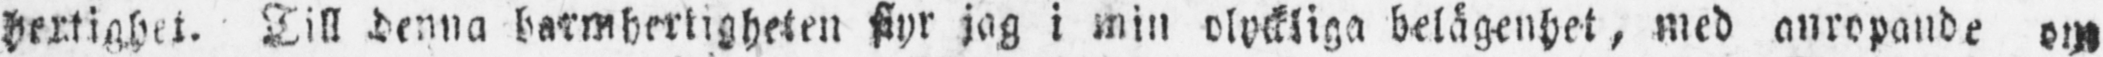hertighet. Till denna barmhertigheten fiyr jag i min olyckliga belägenhet, med anropande om
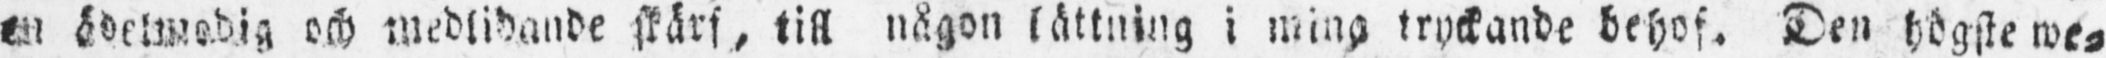til ädelmodig och medlidande skärf, till någon lättning i mina tryckande behof. Den högste we-
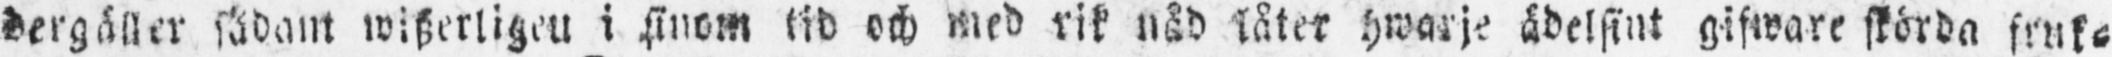dergäller sådant wiszerligen i sinom tid och med rik nåd låter hwarje ädelsint gifware skörda fruk-
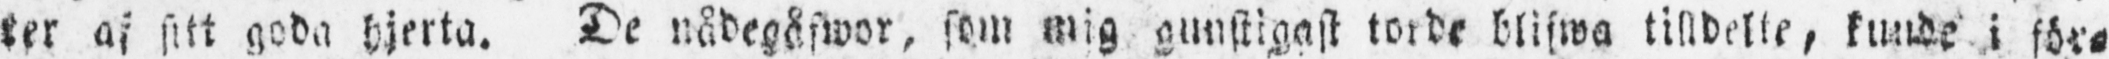ter af sitt goda hjerta. De nådegåfwor, som mig gunstigast torde blifwa tilldelte, kunde i för-
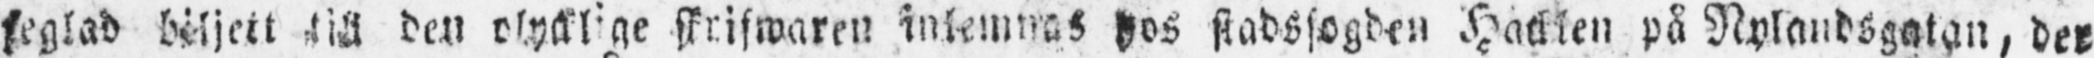seglad biljett till den olycklige skrifwaren inlemnas hos stadsfogden Hacklen på Nylandsgatan, der
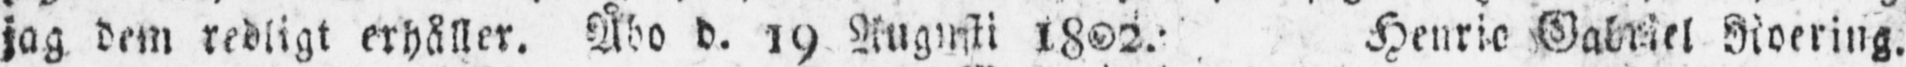jag dem redligt erhåller. Åbo d. 19 Augusti 1802. Henric Gabriel Roering.
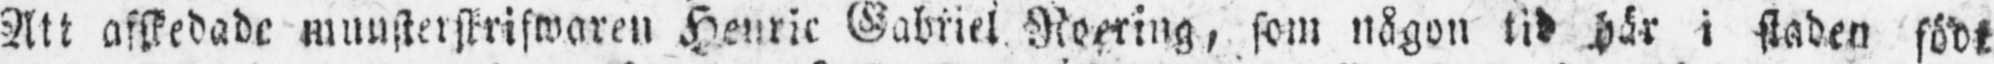Att afskedade munsterskrifwaren Henric Gabriel Roering, som någon tid här i staden födt
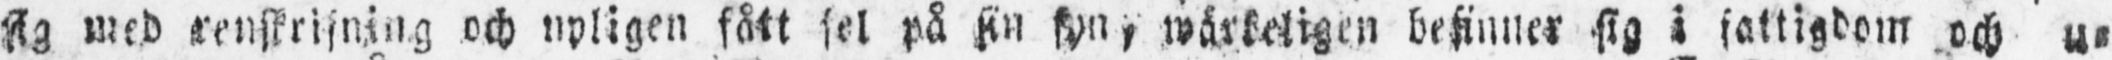sig med renskrifning och nyligen fått fel på sin syn, wärkeligen befinner sig i fattigdom och u-
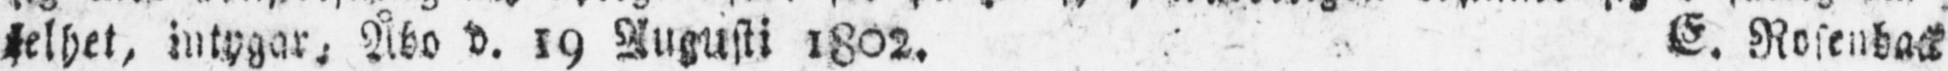selhet, intygar: Åbo d. 19 Augusti 1802. E. Rosenback
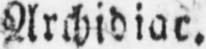Archidiac.
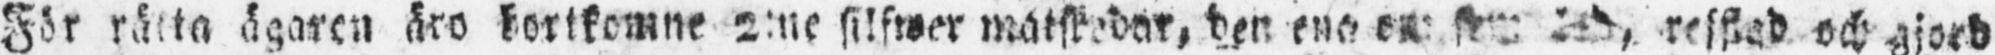För rätta ägaren äro bortkomne 2:ne silfwer matskedar, den ena o som , refflad och gjord
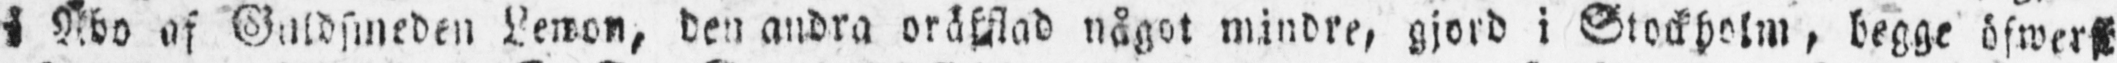i af Guldsmeden Lewon, den andra oråfflad något mindre, gjord i Stockholm, begge öfwerst
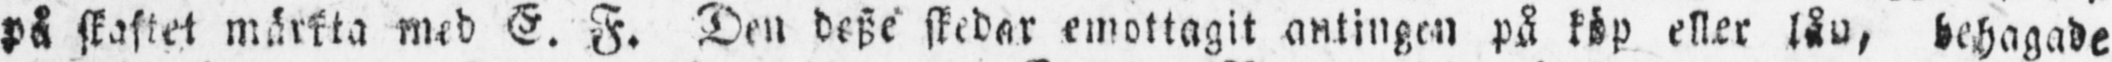på skaftet märkta med E. F. Den desze skedar emottagit antingen på köp eller lån, behagade
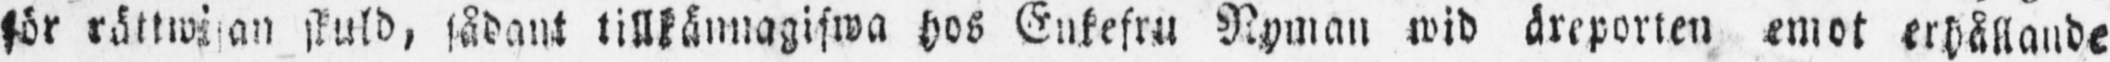för rättwisan skuld, sådant tillkännagifwa hos Enkefru Nyman wid äreporten emot erhållande
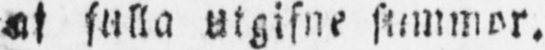af fulla utgifne summor.
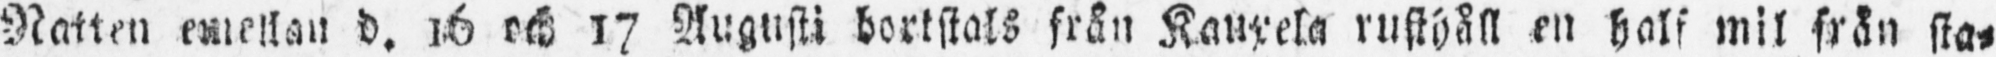Natten emellan d. 16 och 17 Augusti bortstals från Kauxela rusthåll en half mil från sta-
